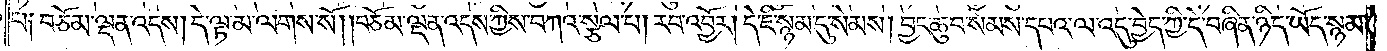པ༑ བཅོམ་ལྡན་འདས། དེ་ལྟ་མ་ལགས་སོ། །བཅོམ་ལྡན་འདས་ཀྱིས་བཀའ་སྩལ་པ། རབ་འབྱོར། དེ་ཇི་སྙམ་དུ་སེམས། བྱང་ཆུབ་སེམས་དཔའ་ལ་འདུ་བྱེད་ཀྱི་དེ་བཞིན་ཉིད་ཡོད་སྙམ་
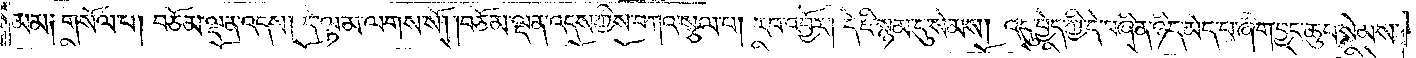མམ༑ གསོལ་པ། བཅོམ་ལྡན་འདས། དེ་ལྟ་མ་ལགས་སོ། །བཅོམ་ལྡན་འདས་ཀྱིས་བཀའ་སྩལ་པ། རབ་འབྱོར། དེ་ཇི་སྙམ་དུ་སེམས། འདུ་བྱེད་ཀྱི་དེ་བཞིན་ཉིད་མེད་པ་ཞིག་བྱང་ཆུབ་སེམས་
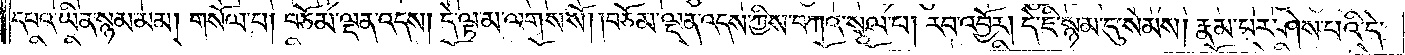དཔའ་ཡིན་སྙམ་མམ། གསོལ་པ། བཅོམ་ལྡན་འདས། དེ་ལྟ་མ་ལགས་སོ། །བཅོམ་ལྡན་འདས་ཀྱིས་བཀའ་སྩལ་པ། རབ་འབྱོར། དེ་ཇི་སྙམ་དུ་སེམས། རྣམ་པར་ཤེས་པའི་དེ་
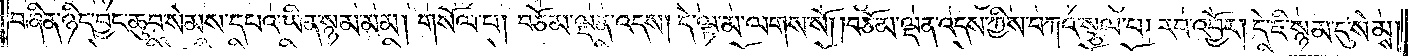བཞིན་ཉིད་བྱང་ཆུབ་སེམས་དཔའ་ཡིན་སྙམ་མམ། གསོལ་པ། བཅོམ་ལྡན་འདས། དེ་ལྟ་མ་ལགས་སོ། །བཅོམ་ལྡན་འདས་ཀྱིས་བཀའ་སྩལ་པ། རབ་འབྱོར། དེ་ཇི་སྙམ་དུ་སེམས།
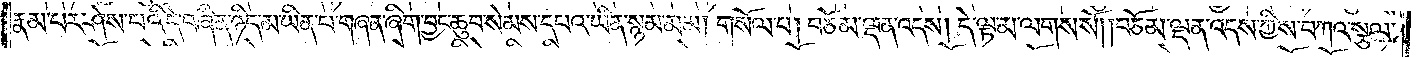རྣམ་པར་ཤེས་པའི་དེ་བཞིན་ཉིད་མ་ཡིན་པ་གཞན་ཞིག་བྱང་ཆུབ་སེམས་དཔའ་ཡིན་སྙམ་མམ། གསོལ་པ། བཅོམ་ལྡན་འདས། དེ་ལྟ་མ་ལགས་སོ། །བཅོམ་ལྡན་འདས་ཀྱིས་བཀའ་སྩལ་
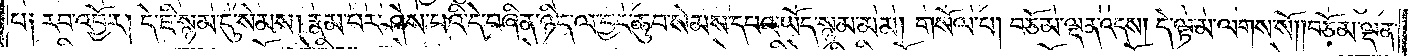པ༑ རབ་འབྱོར། དེ་ཇི་སྙམ་དུ་སེམས། རྣམ་པར་ཤེས་པའི་དེ་བཞིན་ཉིད་ལ་བྱང་ཆུབ་སེམས་དཔའ་ཡོད་སྙམ་མམ། གསོལ་པ། བཅོམ་ལྡན་འདས། དེ་ལྟ་མ་ལགས་སོ། །བཅོམ་ལྡན་
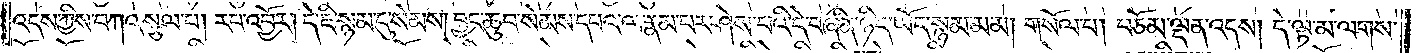འདས་ཀྱིས་བཀའ་སྩལ་པ། རབ་འབྱོར། དེ་ཇི་སྙམ་དུ་སེམས། བྱང་ཆུབ་སེམས་དཔའ་ལ་རྣམ་པར་ཤེས་པའི་དེ་བཞིན་ཉིད་ཡོད་སྙམ་མམ། གསོལ་པ། བཅོམ་ལྡན་འདས། དེ་ལྟ་མ་ལགས་
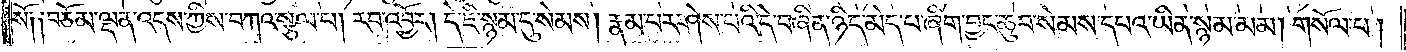སོ༑ ༑བཅོམ་ལྡན་འདས་ཀྱིས་བཀའ་སྩལ་པ། རབ་འབྱོར། དེ་ཇི་སྙམ་དུ་སེམས། རྣམ་པར་ཤེས་པའི་དེ་བཞིན་ཉིད་མེད་པ་ཞིག་བྱང་ཆུབ་སེམས་དཔའ་ཡིན་སྙམ་མམ། གསོལ་པ།
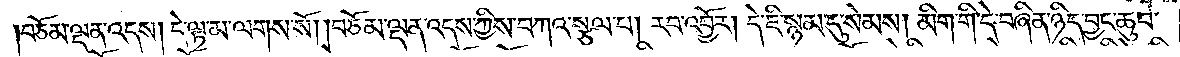བཅོམ་ལྡན་འདས། དེ་ལྟ་མ་ལགས་སོ། །བཅོམ་ལྡན་འདས་ཀྱིས་བཀའ་སྩལ་པ། རབ་འབྱོར། དེ་ཇི་སྙམ་དུ་སེམས། མིག་གི་དེ་བཞིན་ཉིད་བྱང་ཆུབ་
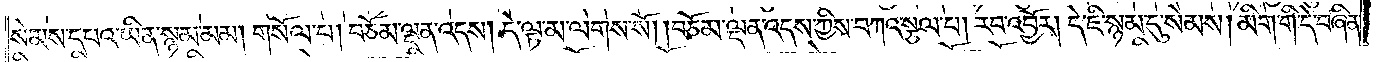སེམས་དཔའ་ཡིན་སྙམ་མམ། གསོལ་པ། བཅོམ་ལྡན་འདས། དེ་ལྟ་མ་ལགས་སོ། །བཅོམ་ལྡན་འདས་ཀྱིས་བཀའ་སྩལ་པ། རབ་འབྱོར། དེ་ཇི་སྙམ་དུ་སེམས། མིག་གི་དེ་བཞིན་
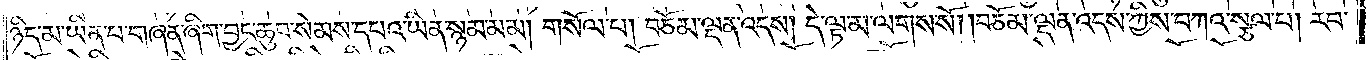ཉིད་མ་ཡིན་པ་གཞན་ཞིག་བྱང་ཆུབ་སེམས་དཔའ་ཡིན་སྙམ་མམ། གསོལ་པ། བཅོམ་ལྡན་འདས། དེ་ལྟ་མ་ལགས་སོ། །བཅོམ་ལྡན་འདས་ཀྱིས་བཀའ་སྩལ་པ། རབ་
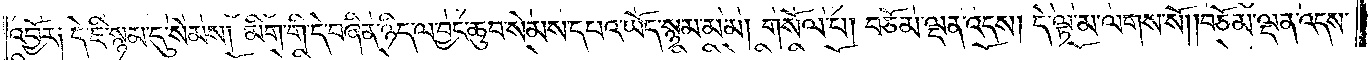འབྱོར༑ དེ་ཇི་སྙམ་དུ་སེམས། མིག་གི་དེ་བཞིན་ཉིད་ལ་བྱང་ཆུབ་སེམས་དཔའ་ཡོད་སྙམ་མམ། གསོལ་པ། བཅོམ་ལྡན་འདས། དེ་ལྟ་མ་ལགས་སོ། །བཅོམ་ལྡན་འདས་
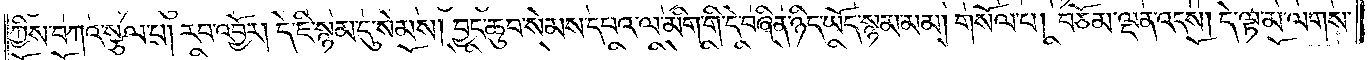ཀྱིས་བཀའ་སྩལ་པ། རབ་འབྱོར། དེ་ཇི་སྙམ་དུ་སེམས། བྱང་ཆུབ་སེམས་དཔའ་ལ་མིག་གི་དེ་བཞིན་ཉིད་ཡོད་སྙམ་མམ། གསོལ་པ། བཅོམ་ལྡན་འདས། དེ་ལྟ་མ་ལགས་
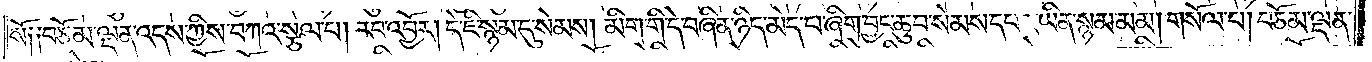སོ༑ ༑བཅོམ་ལྡན་འདས་ཀྱིས་བཀའ་སྩལ་པ། རབ་འབྱོར། དེ་ཇི་སྙམ་དུ་སེམས། མིག་གི་དེ་བཞིན་ཉིད་མེད་པ་ཞིག་བྱང་ཆུབ་སེམས་དཔའ་ཡིན་སྙམ་མམ། གསོལ་པ། བཅོམ་ལྡན་
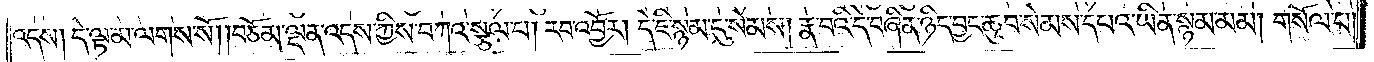འདས། དེ་ལྟ་མ་ལགས་སོ། །བཅོམ་ལྡན་འདས་ཀྱིས་བཀའ་སྩལ་པ། རབ་འབྱོར། དེ་ཇི་སྙམ་དུ་སེམས། རྣ་བའི་དེ་བཞིན་ཉིད་བྱང་ཆུབ་སེམས་དཔའ་ཡིན་སྙམ་མམ། གསོལ་པ་
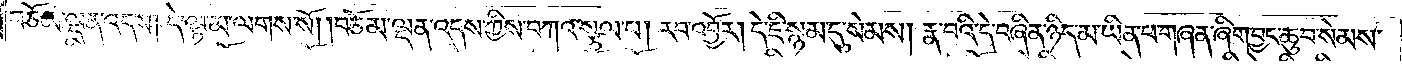བཅོམ་ལྡན་འདས། དེ་ལྟ་མ་ལགས་སོ། །བཅོམ་ལྡན་འདས་ཀྱིས་བཀའ་སྩལ་པ། རབ་འབྱོར། དེ་ཇི་སྙམ་དུ་སེམས། རྣ་བའི་དེ་བཞིན་ཉིད་མ་ཡིན་པ་གཞན་ཞིག་བྱང་ཆུབ་སེམས་
